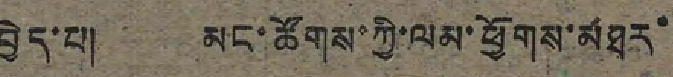བྱེད་པ། མང་ཚོགས་ཀྱི་ལམ་ཕྱོགས་མཐར་
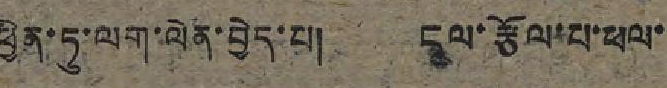ཕྱིན་ཏུ་ལག་ལེན་བྱེད་པ། ངལ་རྩོལ་པ་ཕལ་
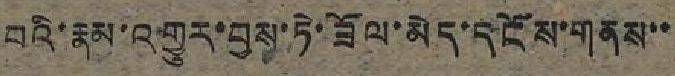བའི་རྣམ་འགྱུར་བྱས་ཏེ་ཟོལ་མེད་དངོས་གནས་་
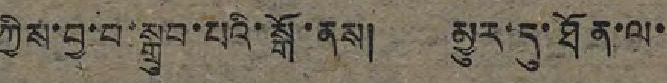ཀྱིས་བྱ་བ་སྒྲུབ་པའི་སྒོ་ནས། མྱུར་དུ་ཐོན་ལ་
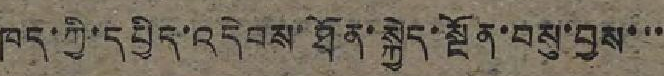ཁད་ཀྱི་དཕྱིད་འདེབས་ཐོན་སྐྱེད་སྔོན་བསུ་བྱས་་་
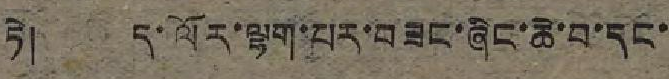ཏེ། ད་ལོར་ལྷག་པར་བཟང་ཞིང་ཆེ་བ་དང་
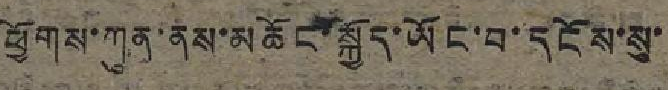ཕྱོགས་ཀུན་ནས་མཆོང་སྐྱོད་ཡོང་བ་དངོས་སུ་
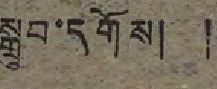སྒྲུབ་དགོས། །
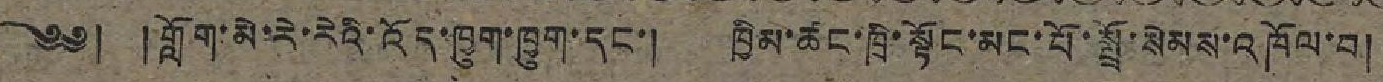༄༅། །གློག་མེ་རེ་རེའི་འོད་ཁྱུག་ཁྱུག་དང་། ཁྱིམ་ཚང་ཁྲི་སྟོང་མང་པོ་སྤྲོ་སེམས་འཁོལ་བ།
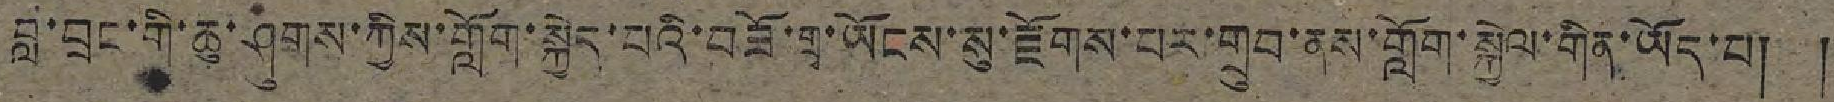བླ་བྲང་གི་ཆུ་ཤུགས་ཀྱིས་གློག་སྐྱེད་པའི་བཟོ་གྲྭ་ཡོངས་སུ་རྫོགས་པར་གྲུབ་ནས་གློག་སྐྱེལ་གིན་ཡོད་པ། །
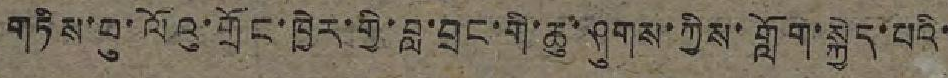གཏིས་བུ་ལོའུ་གྲོང་ཁྱེར་གྱི་བླ་གྲང་གི་ཆུ་ཤུགས་ཀྱིས་གློག་སྐྱེད་པའི་
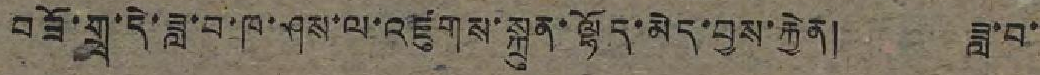བཟོ་གྲྭ་དེ་ཟླ་བ་ཁ་ཤས་ལ་འཛུགས་སྐྲུན་ལྷོད་མེད་བྱས་རྐྱེན། ཟླ་བ་
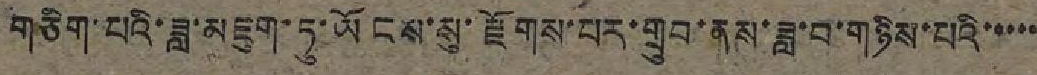གཅིག་པའི་ཟླ་མཇུག་ཏུ་ཡོངས་སུ་རྫོགས་པར་གྲུབ་ནས་ཟླ་བ་གཉིས་པའི་་་་་
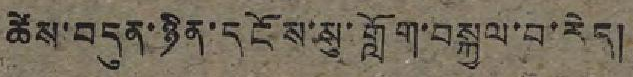ཚེས་བདུན་ཉིན་དངོས་སུ་གློག་བསྐྱལ་བ་རེད།
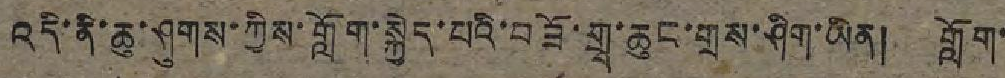འདི་ནི་ཆུ་ཤུགས་ཀྱིས་གློག་སྐྱེད་པའི་བཟོ་གྲྭ་ཆུང་གྲས་ཤིག་ཡིན། གློག་
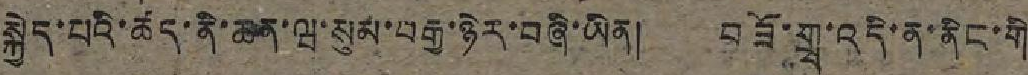སྐྱེད་པའི་ཚད་ནི་ཆན་ཝ་སུམ་བརྒྱ་ཉེར་བཞི་ཡིན། བཟོ་གྲྭ་འདི་ན་ནིང་གི
